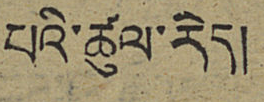པའི་ཚུལ་རེད།
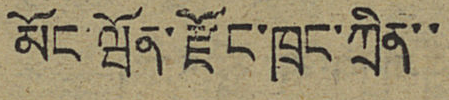མོང་ཝོན་རྫོང་ཁྲང་ཀྲིན་་
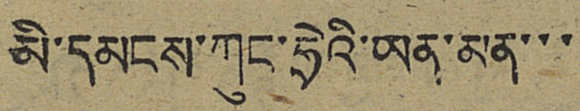མི་དམངས་ཀུང་ཧྲེའི་ཡན་མན་་་
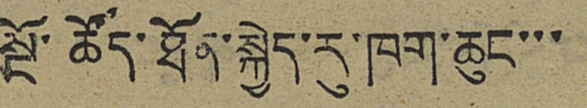སྔོ་ཚོད་ཐོན་སྐྱེད་རུ་ཁག་ཆུང་་་
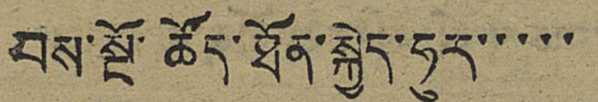བས་སྔོ་ཚོད་ཐོན་སྐྱེད་ཧུར་་་་་
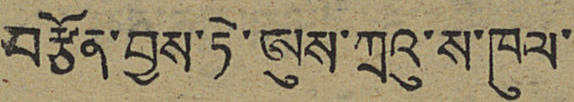བརྩོན་བྱས་ཏེ་ཨུས་ཀྲའུ་ས་ཁུལ་
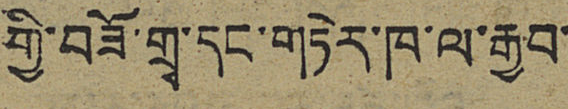གྱི་བཟོ་གྲྭ་དང་གཏེར་ཁ་ལ་རྒྱབ་
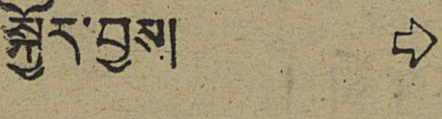སྐྱོར་བྱས། ⇨
